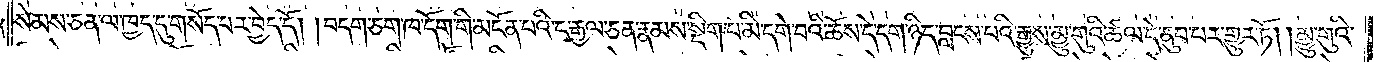སེམས་ཅན་ལ་ཁྱད་དུ་གསོད་པར་བྱེད་དོ། །བདག་ཅག་ཁ་དོག་གི་མངོན་པའི་ང་རྒྱལ་ཅན་རྣམས་སྡིག་པ་མི་དགེ་བའི་ཆོས་དེ་དག་ཉིད་བླངས་པའི་རྒྱུས་མྱུ་གུའི་ཚལ་དེ་ནུབ་པར་གྱུར་ཏོ། །མྱུ་གུའི་
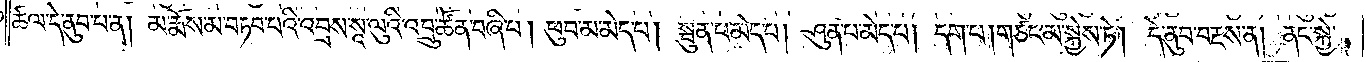ཚལ་དེ་ནུབ་པ་ན། མ་རྨོས་མ་བཏབ་པའི་འབྲས་སཱ་ལུའི་འབྲུ་ཚོན་བཞི་པ། ཕུབ་མ་མེད་པ། སྦུན་པ་མེད་པ། ཤུན་པ་མེད་པ། དག་པ། གཙང་མ་སྐྱེས་ཏེ། དེ་ནུབ་པ་བརྔས་ན། ནང་སྐྱེ་
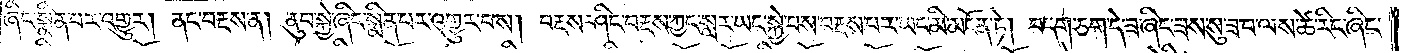ཞིང་སྨིན་པར་འགྱུར། ནང་བརྔས་ན། ནུབ་སྐྱེ་ཞིང་སྨིན་པར་འགྱུར་བས། བརྔས་ཤིང་བརྔས་ཀྱང་སླར་ཡང་སྐྱེ་བས་བརྔས་པར་ཡང་མི་མངོན་ཏེ། བདག་ཅག་དེ་ཟ་ཞིང་ཟས་སུ་ཟ་བ་ལས་ཚེ་རིང་ཞིང་
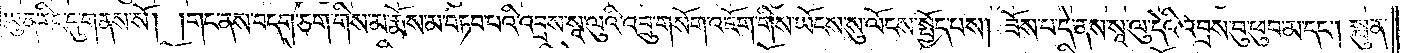ཡུན་རིང་དུ་གནས་སོ། །གང་ནས་བདག་ཅག་གིས་མ་རྨོས་མ་བཏབ་པའི་འབྲས་སཱ་ལུའི་འབྲུ་གསོག་འཇོག་གིས་ཡོངས་སུ་ལོངས་སྤྱོད་པས། ཟོས་པ་དེ་ནས་སཱ་ལུ་དེའི་འབྲས་བུ་ཕུབ་མ་དང༌། སྦུན་
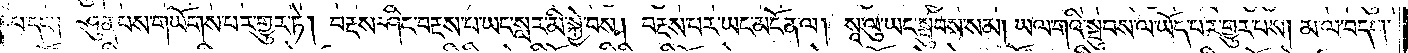པ་དང༌། ཤུན་པས་གཡོགས་པར་གྱུར་ཏེ། བརྔས་ཤིང་བརྔས་པ་ཡང་སླར་མི་སྐྱེ་བས། བརྔས་པར་ཡང་མངོན་ལ། སཱ་ལུ་ཡང་སྦུབས་སམ། ཡལ་གའི་སྦུབས་ལ་ཡོད་པར་གྱུར་པས། མ་ལ་བདག་
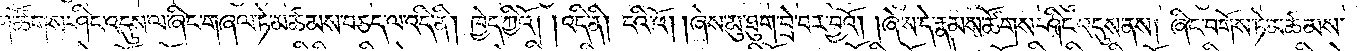ཅག་ཚོགས་ཤིང་འདུས་ལ་ཞིང་གཞལ་ཏེ་མཚམས་བཅད་ལ་འདི་ནི། ཁྱེད་ཀྱིའོ། །འདི་ནི། ངའི་འོ། །ཞེས་མུ་ཐུག་བྲེ་བར་བྱའོ། །ཞེས་དེ་རྣམས་ཚོགས་ཤིང་འདུས་ནས། ཞིང་བགོས་ཏེ་མཚམས་
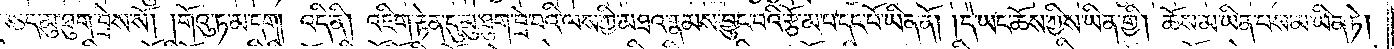བཅད་མུ་ཐུག་བྲེས་སོ། །གོའུ་ཏ་མ་དག །འདི་ནི། འཇིག་རྟེན་དུ་མུ་ཐུག་བྲེ་བའི་ལས་ཀྱི་མཐའ་རྣམས་བྱུང་བའི་རྩོམ་པ་དང་པོ་ཡིན་ནོ། །དེ་ཡང་ཆོས་ཀྱིས་ཡིན་གྱི། ཆོས་མ་ཡིན་པས་མ་ཡིན་ཏེ།
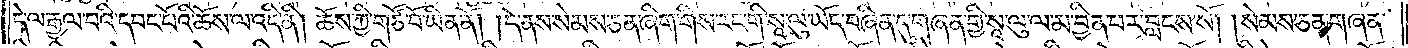དེ་ལ་རྒྱལ་བའི་དབང་པོའི་ཆོས་ལ་འདི་ནི། ཆོས་ཀྱི་གཙོ་བོ་ཡིན་ནོ། །དེ་ནས་སེམས་ཅན་ཞིག་གིས་རང་གི་སཱ་ལུ་ཡོད་བཞིན་དུ་གཞན་གྱི་སཱ་ལུ་ལ་མ་བྱིན་པར་བླངས་སོ། །སེམས་ཅན་གཞན་
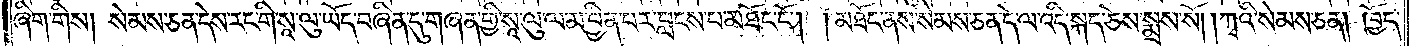ཞིག་གིས། སེམས་ཅན་དེས་རང་གི་སཱ་ལུ་ཡོད་བཞིན་དུ་གཞན་གྱི་སཱ་ལུ་ལ་མ་བྱིན་པར་བླངས་པ་མཐོང་ངོ༌། །མཐོང་ནས་སེམས་ཅན་དེ་ལ་འདི་སྐད་ཅེས་སྨྲས་སོ། །ཀྭའི་སེམས་ཅན། ཁྱོད་
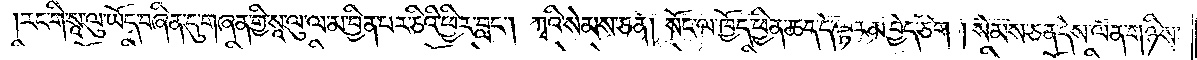རང་གི་སཱ་ལུ་ཡོད་བཞིན་དུ་གཞན་གྱི་སཱ་ལུ་ལ་མ་བྱིན་པར་ཅིའི་ཕྱིར་བླང༌། ཀྭའི་སེམས་ཅན། སོང་ལ་ཁྱོད་ཕྱིན་ཆད་དེ་ལྟར་མ་བྱེད་ཅིག །སེམས་ཅན་དེས་ལན་གཉིས་
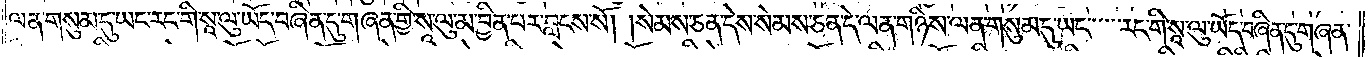ལན་གསུམ་དུ་ཡང་རང་གི་སཱ་ལུ་ཡོད་བཞིན་དུ་གཞན་གྱི་སཱ་ལུ་མ་བྱིན་པར་བླངས་སོ། །སེམས་ཅན་དེས་སེམས་ཅན་དེ་ལན་གཉིས་ལན་གསུམ་དུ་ཡང་རང་གི་སཱ་ལུ་ཡོད་བཞིན་དུ་གཞན་
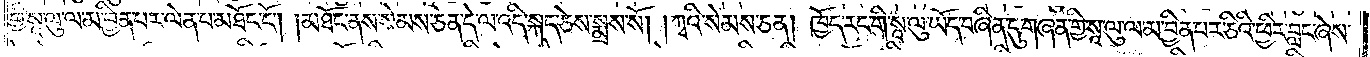གྱི་སཱ་ལུ་ལ་མ་བྱིན་པར་ལེན་པ་མཐོང་ངོ༌། །མཐོང་ནས་སེམས་ཅན་དེ་ལ་འདི་སྐད་ཅེས་སྨྲས་སོ། །ཀྭའི་སེམས་ཅན། ཁྱོད་རང་གི་སཱ་ལུ་ཡོད་བཞིན་དུ་གཞན་གྱི་སཱ་ལུ་ལ་མ་བྱིན་པར་ཅིའི་ཕྱིར་བླང་ཞེས་
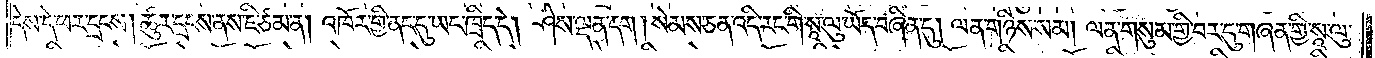དེས་དེ་ཕར་དྲངས། ཚུར་དྲངས་ནས་ཇི་ཙམ་ན། འཁོར་གྱི་ནང་དུ་ཡང་ཁྲིད་དེ། ཤེས་ལྡན་དག །སེམས་ཅན་འདི་རང་གི་སཱ་ལུ་ཡོད་བཞིན་དུ། ལན་གཉིས་སམ། ལན་གསུམ་གྱི་བར་དུ་གཞན་གྱི་སཱ་ལུ་
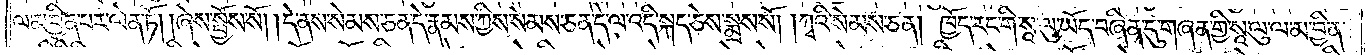ལ་མ་བྱིན་པར་ལེན་ཏོ། །ཞེས་སྤྱོས་སོ། །དེ་ནས་སེམས་ཅན་དེ་རྣམས་ཀྱིས་སེམས་ཅན་དེ་ལ་འདི་སྐད་ཅེས་སྨྲས་སོ། །ཀྭའི་སེམས་ཅན། ཁྱོད་རང་གི་སཱ་ལུ་ཡོད་བཞིན་དུ་གཞན་གྱི་སཱ་ལུ་ལ་མ་བྱིན་
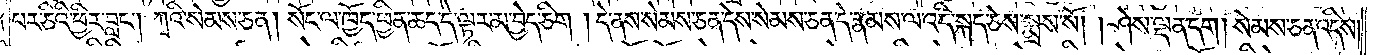པར་ཅིའི་ཕྱིར་བླང༌། ཀྭའི་སེམས་ཅན། སོང་ལ་ཁྱོད་ཕྱིན་ཆད་དེ་ལྟར་མ་བྱེད་ཅིག །དེ་ནས་སེམས་ཅན་དེས་སེམས་ཅན་དེ་རྣམས་ལ་འདི་སྐད་ཅེས་སྨྲས་སོ། །ཤེས་ལྡན་དག །སེམས་ཅན་འདིས་
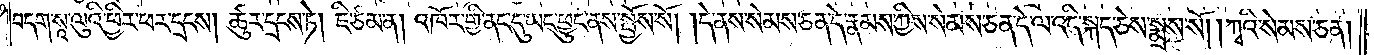བདག་སཱ་ལུའི་ཕྱིར་ཕར་དྲངས། ཚུར་དྲངས་ཏེ། ཇི་ཙམ་ན། འཁོར་གྱི་ནང་དུ་ཡང་ཕྱུང་ནས་སྤྱོས་སོ། །དེ་ནས་སེམས་ཅན་དེ་རྣམས་ཀྱིས་སེམས་ཅན་དེ་ལ་འདི་སྐད་ཅེས་སྨྲས་སོ། །ཀྭའི་སེམས་ཅན།
